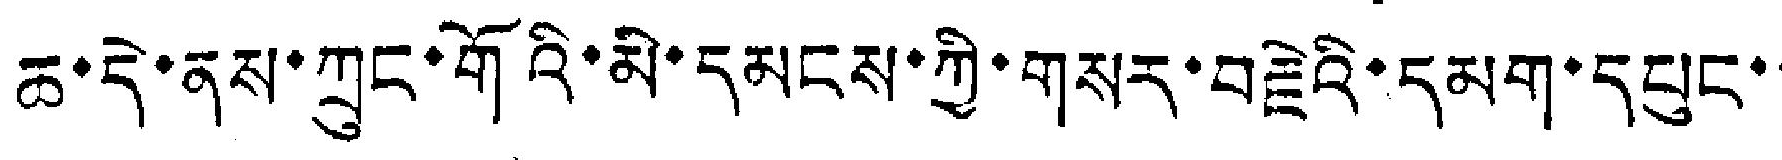ཆ་དེ་ནས་ཀྲུང་གོའི་མི་དམངས་ཀྱི་གསར་བརྗེའི་དམག་དཔུང་་
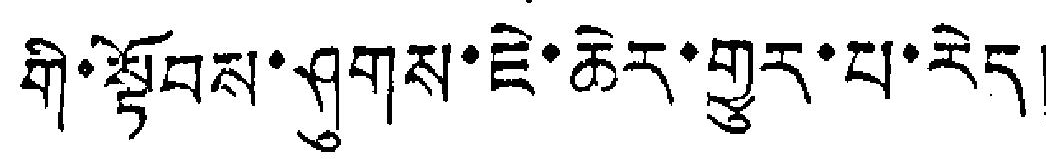གི་སྟོབས་ཤུགས་ཇེ་ཆེར་གྱུར་པ་རེད།
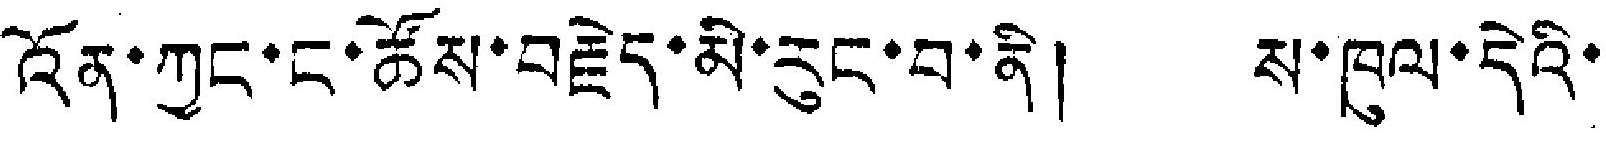འོན་ཀྱང་ང་ཚོས་བརྗེད་མི་རུང་བ་ནི། ས་ཁུལ་དེའི་
